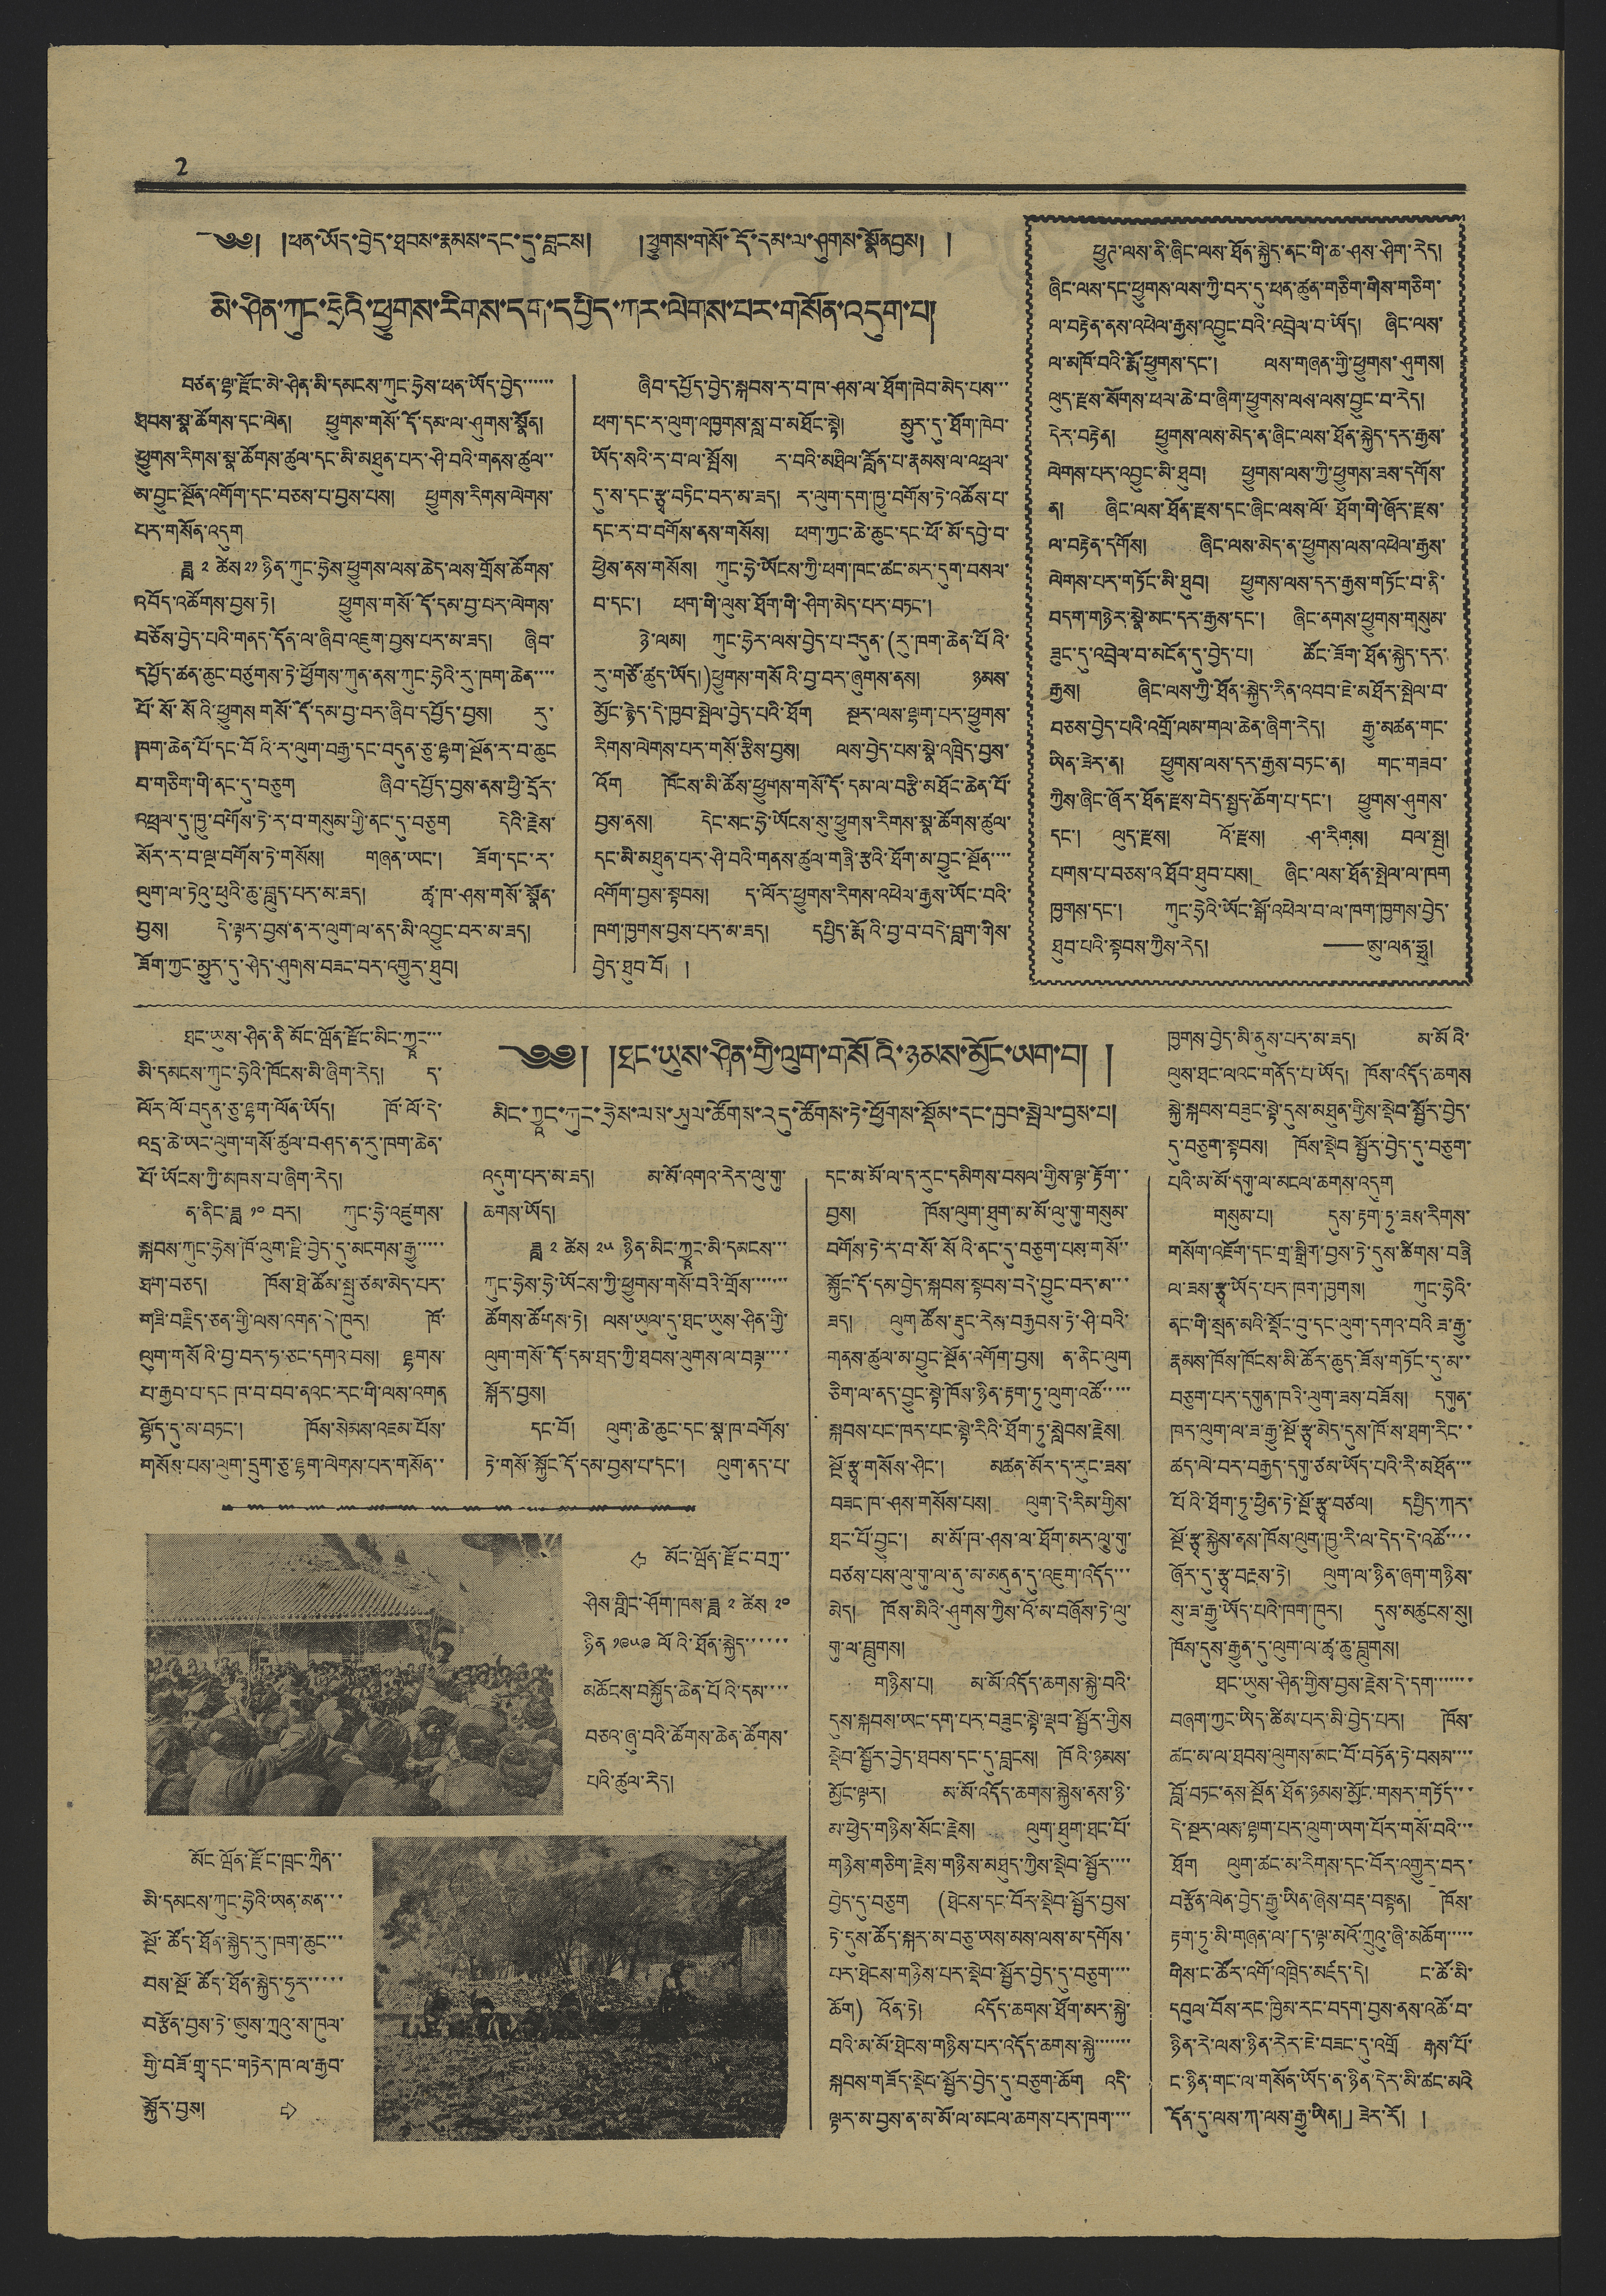2
༄༅། །ཕན་ཡོད་བྱེད་ཐབས་རྣམས་དང་དུ་བླངས། །ཕྱུགས་གསོ་དོ་དམ་ལ་ཤུགས་སྣོན་བྱས། །
མེ་ཤིན་ཀུང་ཧྲེའི་ཕྱུགས་རིགས་དག་དཔྱིད་ཀར་ལེགས་པར་གསོན་འདུག་པ།
བཙན་ལྷ་རྫོང་མེ་ཤིན་མི་དམངས་ཀུང་ཧྲེས་ཕན་ཡོད་བྱེད་་་་་་
ཐབས་སྣ་ཚོགས་དང་ལེན། ཕྱུགས་གསོ་དོ་དམ་ལ་ཤུགས་སྣོན།
ཕྱུགས་རིགས་སྣ་ཚོགས་ཚུལ་དང་མི་མཐུན་པར་ཤི་བའི་གནས་ཚུལ་་
མ་བྱུང་སྔོན་འགོག་དང་བཅས་པ་བྱས་པས། ཕྱུགས་རིགས་ལེགས་
པར་གསོན་འདུག
ཟླ ༢ ཚེས ༢༡ ཉིན་ཀུང་ཧྲེས་ཕྱུགས་ལས་ཆེད་ལས་གྲོས་ཚོགས་
འབོད་འཚོགས་བྱས་ཏེ། ཕྱུགས་གསོ་དོ་དམ་བྱ་པར་ལེགས་
བཅོས་བྱེད་པའི་གནད་དོན་ལ་ཞིབ་འཇུག་བྱས་པར་མ་ཟད། ཞིབ་
དཔྱོད་ཚན་ཆུང་བཙུགས་ཏེ་ཕྱོགས་ཀུན་ནས་ཀུང་ཧྲེའི་རུ་ཁག་ཆེན་་་་
པོ་སོ་སོའི་ཕྱུགས གསོ་དོ་དམ་བྱ་བར་ཞིབ་དཔྱོད་བྱས། རུ་
ཁག་ཆེན་པོ་དང་བོའི་ར་ལུག་བརྒྱ་དང་བདུན་ཅུ་ལྷག་སྔོན་ར་བ་ཆུང
བ་གཅིག་གི་ནང་དུ་བཅུག ཞིབ་དཔྱོད་བྱས་ནས་ཕྱི་དྲོར་
འཕྲལ་དུ་ཁྱུ་བགོས་ཏེ་ར་བ་གསུམ་གྱི་ནང་དུ་བཅུག དེའི་རྗེས་
སོར་ར་བ་ལྔ་བགོས་ཏེ་གསོས། གཞན་ཡང་། ཟོག་དང་ར་
ལུག་ལ་ཏེའུ་ཕུའི་ཆུ་བླུད་པར་མ་ཟད། ཚྭ་ཁ་ཤས་གསོ་སྣོན་
བྱས། དེ་ལྟར་བྱས་ན་ར་ལུག་ལ་ནད་མི་འབྱུང་བར་མ་ཟད།
ཟོག་ཀྱང་མྱུར་དུ་ཤེད་ཤུགས་བཟང་བར་འགྱུར་ཐུབ།
ཞིབ་དཔྱོད་བྱེད་སྐབས་ར་བ་ཁ་ཤས་ལ་ཐོག་ཁེབ་མེད་པས་་་
ཕག་དང་ར་ལུག་འཁྱགས་སླ་བ་མཐོང་སྟེ། མྱུར་དུ་ཐོག་ཁེབ་
ཡོད་སའི་ར་བ་ལ་སྤོས། ར་བའི་མཐིལ་རློན་པ་རྣམས་ལ་འཕྲལ་
དུ་ས་དང་རྩྭ་བཏིང་བར་མ་ཟད། ར་ལུག་དག་ཁྱུ་བགོས་ཏེ་འཚོས་པ་
དང་ར་བ་བགོས་ནས་གསོས། ཕག་ཀྱང་ཆེ་ཆུང་དང་ཕོ་མོ་དབྱེ་བ་
ཕྱེས་ནས་གསོས། ཀུང་ཧྲེ་ཡོངས་ཀྱི་ཕག་ཁང་ཚང་མར་དུག་བསལ་
བ་དང་། ཕག་གི་ལུས་ཐོག་གི་ཤིག་མེད་པར་བཏང་།
ཉེ་ལམ། ཀུང་ཧྲེར་ལས་བྱེད་པ་བདུན་(རུ་ཁག་ཆེན་པོའི་
རུ་གཙོ་ཚུད་ཡོད།)ཕྱུགས་གསོའི་བྱ་བར་ཞུགས་ནས། ཉམས་
མྱོང་རྙེད་དེ་ཁྱབ་སྤེལ་བྱེད་པའི་ཐོག སྔར་ལས་ལྷག་པར་ཕྱུགས་
རིགས་ལེགས་པར་གསོ་རྩིས་བྱས། ལས་བྱེད་པས་སྣེ་འཁྲིད་བྱས་
འོག ཁོངས་མི་ཚོས་ཕྱུགས་གསོ་དོ་དམ་ལ་བརྩི་མཐོང་ཆེ་པོ་
བྱས་ནས། དེང་སང་ཧྲེ་ཡོངས་སུ་ཕྱུགས་རིགས་སྣ་ཚོགས་ཚུལ་
དང་མི་མཐུན་པར་ཤི་བའི་གནས་ཚུལ་གཞི་རྩའི་ཐོག་མ་བྱུང་སྔོན་་་་
འགོག་བྱས་སྟབས། ད་ལོར་ཕྱུགས་རིགས་འཕེལ་རྒྱས་ཡོང་བའི་
ཁག་ཁྱགས་བྱས་པར་མ་ཟད། དཔྱིད་རྨོའི་བྱ་བ་བདེ་བླག་གིས་
བྱེད་ཐུབ་བོ། །
ཕྱུཊ་ལས་ནི་ཞིང་ལས་ཐོན་སྐྱེད་ནང་གི་ཆ་ཤས་ཤིག་རེད།
ཞིང་ལས་དང་ཕྱུགས་ལས་ཀྱི་བར་དུ་ཕན་ཚུན་གཅིག་གིས་གཅིག་
ལ་བརྟེན་ནས་འཕེལ་རྒྱས་འབྱུང་བའི་འབྲེལ་བ་ཡོད། ཞིང་ལས་
ལ་མཁོ་བའི་རྨོ་ཕྱུགས་དང་། ལས་གཞན་གྱི་ཕྱུགས་ཤུགས།
ལུད་རྫས་སོགས་ཕལ་ཆེ་བ་ཞིག་ཕྱུགས་ལས་ལས་བྱུང་བ་རེད།
དེར་བརྟེན། ཕྱུགས་ལས་མེད་ན་ཞིང་ལས་ཐོན་སྐྱེད་དར་རྒྱས་
ལེགས་པར་འབྱུང་མི་ཐུབ། ཕྱུགས་ལས་ཀྱི་ཕྱུགས་ཟས་དགོས་
ན། ཞིང་ལས་ཐོན་རྫས་དང་ཞིང་ལས་ལོ་ཐོག་གི་ཞོར་རྫས་
ལ་བརྟེན་དགོས། ཞིང་ལས་མེད་ན་ཕྱུགས་ལས་འཕེལ་རྒྱས་
ལེགས་པར་གཏོང་མི་ཐུབ། ཕྱུགས་ལས་དར་རྒྱས་གཏོང་བ་ནི་
བདག་གཉེར་སྣེ་མང་དར་རྒྱས་དང་། ཞིང་ནགས་ཕྱུགས་གསུམ་
ཟུང་དུ་འབྲེལ་བ་མངོན་དུ་བྱེད་པ། ཚོང་ཟོག་ཐོན་སྐྱེད་དར་
རྒྱས། ཞིང་ལས་ཀྱི་ཐོན་སྐྱེད་རིན་འབབ་ཇེ་མཐོར་སྤེལ་བ་
བཅས་བྱེད་པའི་འགྲོ་ལམ་གལ་ཆེན་ཞིག་རེད། རྒྱུ་མཚན་གང་
ཡིན་ཟེར་ན། ཕྱུགས་ལས་དར་རྒྱས་བཏང་ན། གང་གཟབ་
ཀྱིས་ཞིང་ཞོར་ཐོན་རྫས་བེད་སྤྱད་ཆོག་པ་དང་། ཕྱུགས་ཤུགས་
དང་། ལུད་རྫས། འོ་རྫས། ཤ་རིགས། བལ་སྤུ།
པགས་པ་བཅས་འཐོབ་ཐུབ་པས། ཞིང་ལས་ཐོན་སྤེལ་ལ་ཁག་
ཁྱགས་དང་། ཀུང་ཧྲེའི་ཡོང་སྒོ་འཕེལ་བ་ལ་ཁག་ཁྱགས་བྱེད་
ཐུབ་པའི་སྟབས་ཀྱིས་རེད། ——ཨུ་ལན་ཧྥུ།
༄༅། །ཐང་ཡུས་ཤིན་གྱི་ལུག་གསོའི་ཉམས་མྱོང་ཡག་བ། །
མིང་ཀྱཱང་ཀུང་ཧྲེས་ལས་ཡུལ་ཚོགས་འདུ་ཚོགས་ཏེ་ཕྱོགས་སྡོམ་དང་ཁྱབ་སྤེལ་བྱས་པ།
ཐང་ཡུས་ཤིན་ནི་མོང་ཝོན་རྫོང་མིང་ཀྱཱང་་་
མི་དམངས་ཀུང་ཧྲེའི་ཁོངས་མི་ཞིག་རེད། ད་
ལོར་ལོ་བདུན་ཅུ་ལྷག་ལོན་ཡོད། ཁོ་ལོ་དེ་
འདྲ་ཆེ་ཡང་ལུག་གསོ་ཚུལ་བཤད་ན་རུ་ཁག་ཆེན་
པོ་ཡོངས་ཀྱི་མཁས་པ་ཞིག་རེད།
ན་ནིང་ཟླ ༡༠ བར། ཀུང་ཧྲེ་འཛུགས་
སྐབས་ཀུང་ཧྲེས་ཁོ་ལུག་རྫི་བྱེད་དུ་མངགས་རྒྱུ་་་་་
ཐག་བཅད། ཁོས་ཐེ་ཚོམ་སྤུ་ཙམ་མེད་པར་
གཟི་བརྗིད་ཅན་གྱི་ལས་འགན་དེ་ཁུར། ཁོ་
ལུག་གསོའི་བྱ་བར་ཧ་ཅང་དགའ་བས། ལྷགས་
པ་རྒྱབ་པ་དང་ཁ་བ་བབ་ནའང་རང་གི་ལས་འགན
ལྷོད་དུ་མ་བཏང་། ཁོས་སེམས་འཇམ་པོས་
གསོས་པས་ལུག་དྲུག་ཅུ་ལྷག་ལེགས་པར་གསོན་་
འདུག་པར་མ་ཟད། མ་མོ་འགའ་རེར་ལུ་གུ་
ཆགས་ཡོད།
ཟླ ༢ ཚེས ༢༥ ཉིན་མིང་ཀྱཱང་མི་དམངས་་་
ཀུང་ཧྲེས་ཧྲེ་ཡོངས་ཀྱི་ཕྱུགས་གསོ་བའི་གྲོས་་་་་་་
ཚོགས་ཚོགས་ཏེ། ལས་ཡུལ་དུ་ཐང་ཡུས་ཤིན་གྱི་
ལུག་གསོ་དོ་དམ་ཐད་ཀྱི་ཐབས་ལུགས་ལ་བལྟ་་་་
སྐོར་བྱས།
དང་བོ། ལུག་ཆེ་ཆུང་དང་སྣ་ཁ་བགོས་
ཏེ་གསོ་སྐྱོང་དོ་དམ་བྱས་པ་དང་། ལུག་ནད་པ་
དང་མ་མོ་ལ་ད་རུང་དམིགས་བསལ་གྱིས་ལྟ་རྟོག་་
བྱས། ཁོས་ལུག་ཐུག་མ་མོ་ལུ་གུ་གསུམ་
བགོས་ཏེ་ར་བ་སོ་སོའི་ནང་དུ་བཅུག་པས་གསོ་་
སྐྱོང་དོ་དམ་བྱེད་སྐབས་སྟབས་བདེ་བྱུང་བར་མ་་་
ཟད། ལུག ཚོས་རྡུང་རེས་བརྒྱབས་ཏེ་ཤི་བའི་
གནས་ཚུལ་མ་བྱུང་སྔོན་འགོག་བྱས། ན་ནིང་ལུག
ཅིག་ལ་ནད་བྱུང་སྟེ་ཁོས་ཉིན་རྟག་ཏུ་ལུག་འཚོ་་་་་
སྐབས་པང་ཁར་པང་སྟེ་རིའི་ཐོག་ཏུ་སླེབས་རྗེས།
སྔོ་རྩྭ་གསོས་ཤིང་། མཚན་མོར་ད་རུང་ཟས་
བཟང་ཁ་ཤས་གསོས་པས། ལུག་དེ་རིམ་གྱིས་
ཐང་པོ་བྱུང་། མ་མོ་ཁ་ཤས་ལ་ཐོག་མར་ལུ་གུ་
བཙས་པས་ལུ་གུ་ལ་ནུ་མ་མནུན་དུ་འཇུག་འདོད་་་
མེད། ཁོས་མིའི་ཤུགས་ཀྱིས་འོ་མ་བཞོས་ཏེ་ལུ་
གུ་ལ་བླུགས།
གཉིས་པ། མ་མོ་འདོད་ཆགས་སྐྱེ་བའི་
དུས་སྐབས་ཡང་དག་པར་བཟུང་སྟེ་ལྡབ་སྦྱོར་གྱིས
སྡེབ་སྦྱོར་བྱེད་ཐབས་དང་དུ་བླངས། ཁོའི་ཉམས་
མྱོང་ལྟར། མ་མོ་འདོད་ཆགས་སྐྱེས་ནས་ཉི་
མ་ཕྱེད་གཉིས་སོང་རྗེས། ལུག་ཐུག་ཐང་པོ་
གཉིས་གཅིག་རྗེས་གཉིས་མཐུད་ཀྱིས་སྡེབ་སྦྱོར་་་་
བྱེད་དུ་བཅུག (ཐེངས་དང་བོར་སྡེབ་སྦྱོར་བྱས་
ཏེ་དུས་ཚོད་སྐར་མ་བཅུ་ཡས་མས་ལས་མ་དགོས་
པར་ཐེངས་གཉིས་པར་སྡེབ་སྦྱོར་བྱེད་དུ་བཅུག་་་་
ཆོག) འོན་ཏེ། འདོད་ཆགས་ཐོག་མར་སྐྱེ་
བའི་མ་མོ་ཐེངས་གཉིས་པར་འདོད་ཆགས་སྐྱེ་་་་་་་
སྐབས་གཟོད་སྡེབ་སྦྱོར་བྱེད་དུ་བཅུག་ཆོག འདི་
ལྟར་མ་བྱས་ན་མ་མོ་ལ་མངལ་ཆགས་པར་ཁག་་་་
ཁྱགས་བྱེད་མི་ནུས་པར་མ་ཟད། མ་མོའི་
ལུས་ཐང་ལའང་གནོད་པ་ཡོད། ཁོས་འདོད་ཆགས
སྐྱེ་སྐབས་བཟུང་སྟེ་དུས་མཐུན་གྱིས་སྡེབ་སྦྱོར་བྱེད་
དུ་བཅུག་སྟབས། ཁོས་སྡེབ སྦྱོར་བྱེད་དུ་བཅུག་
པའི་མ་མོ་དགུ་ལ་མངལ་ཆགས་འདུག
གསུམ་པ། དུས་རྟག་ཏུ་ཟས་རིགས་
གསོག་འཇོག་དང་གྲ་སྒྲིག་བྱས་ཏེ་དུས་ཚིགས་བཞི
ལ་ཟས་རྩྭ་ཡོད་པར་ཁག་ཁྱགས། ཀུང་ཧྲེའི་
ནང་གི་སྲན་མའི་སྡོང་བུ་དང་ལུག་དགའ་བའི ཟ་རྒྱུ་
རྣམས་ཁོས་ཁོངས་མི་ཚོར་ཆུད་ཟོས་གཏོང་དུ་མ་་
བཅུག་པར་དགུན་ཁའི་ལུག་ཟས་བཟོས། དགུན་
ཁར་ལུག་ལ་ཟ་རྒྱུ་སྔོ་རྩྭ་མེད་དུས་ཁོ་ས་ཐག་རིང་་
ཚད་ལེ་བར་བརྒྱད་དགུ་ཙམ་ཡོད་པའི་རི་མཐོན་་་
པོའི་ཐོག་ཏུ་ཕྱིན་ཏེ་སྔོ་རྩྭ་བཙལ། དཔྱིད་ཀར་
སྔོ་རྩྭ་སྐྱེས་ནས་ཁོས་ལུག་ཁྱུ་རི་ལ་དེད་དེ་འཚོ་་་་
ཞོར་དུ་རྩྭ་བརྔས་ཏེ། ལུག་ལ་ཉིན་ཞག་གཉིས་
སུ་ཟ་རྒྱུ་ཡོད་པའི་ཁག་ཁུར། དུས་མཚུངས་སུ།
ཁོས་དུས་རྒྱུན་དུ་ལུག་ལ་ཚྭ་ཆུ་བླུགས།
ཐང་ཡུས་ཤིན་གྱིས་བྱས་རྗེས་དེ་དག་་་་་་་
བཞག་ཀྱང་ཡིད་ཚིམ་པར་མི་བྱེད་པར། ཁོས་
ཚང་མ་ལ་ཐབས་ལུགས་མང་བོ་བཏོན་ཏེ་བསམ་་་་
བློ་བཏང་ནས་སྔོན་ཐོན་ཉམས་མྱོང་གསར་གཏོད་་་
དེ་སྔར་ལས་ལྷག་པར་ལུག་ཡག་པོར་གསོ་བའི་་་
ཐོག ལུག་ཚང་མ་རིགས་དང་བོར་འགྱུར་བར་
བརྩོན་ལེན་བྱེད་རྒྱུ་ཡིན་ཞེས་བརྡ་བསྟན། ཁོས་
རྟག་ཏུ་མི་གཞན་ལ་「ད་ལྟ་མའོ་ཀྲུའུ་ཞི་མཆོག་་་་་
གིས་ང་ཚོར་འགོ་འཁྲིད་མཛད་དེ། ང་ཚོ་མི་
དབུལ་བོས་རང་ཁྱིམ་རང་བདག་བྱས་ནས་འཚོ་བ་
ཉིན་རེ་ལས་ཉིན་རེར་ཇེ་བཟང་དུ་འགྲོ རྒས་པོ་
ང་ཉིན་གང་ལ་གསོན་ཡོད་ན་ཉིན་དེར་མི་ཚང་མའི་
དོན་དུ་ལས་ཀ་ལས་རྒྱུ་ཡིན།」ཟེར་རོ། །
⇦ མོང་ཝོན་རྫོང་བཀྲ་་
ཤིས་གླིང་ཤོག་ཁས་ཟླ ༢ ཚེས ༢༠
ཉིན ༡༩༥༩ ལོའི་ཐོན་སྐྱེད་་་་་་
མཆོངས་བསྐྱོད་ཆེན་པོའི་དམ་་་་
བཅའ་ཞུ་བའི་ཚོགས་ཆེན་ཚོགས་
པའི་ཚུལ་རེད།
མོང་ཝོན་རྫོང་ཁྲང་ཀྲིན་་
མི་དམངས་ཀུང་ཧྲེའི་ཡན་མན་་་
སྔོ་ཚོད་ཐོན་སྐྱེད་རུ་ཁག་ཆུང་་་
བས་སྔོ་ཚོད་ཐོན་སྐྱེད་ཧུར་་་་་
བརྩོན་བྱས་ཏེ་ཨུས་ཀྲའུ་ས་ཁུལ་
གྱི་བཟོ་གྲྭ་དང་གཏེར་ཁ་ལ་རྒྱབ་
སྐྱོར་བྱས། ⇨
